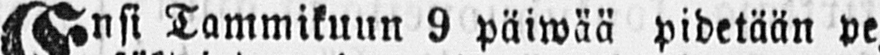Ensi Tammikuun 9 päiwää pidetään pe
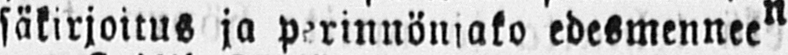säkirjoitus ja perinnönjako edesmenneen
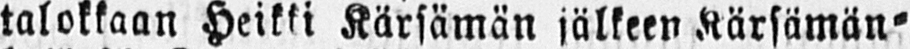talokkaan Heikki Kärsämän jälkeen Kärsämän-
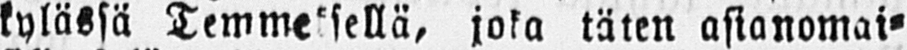kylässä Temmeksellä, joka täten asianomai-
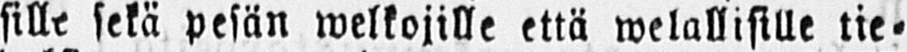sille sekä pesän welkojille että welallisille tie-
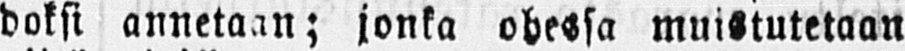doksi annetaan; jonka ohessa muistutetaan
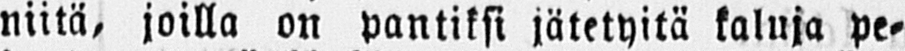niitä, joilla on pantiksi jätetyitä kaluja pe-
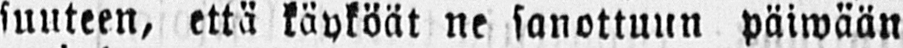suuteen, että käyköät ne sanottuun päiwään
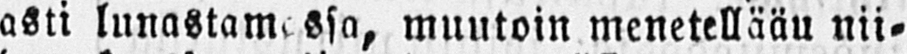asti lunastamassa, muutoin menetellääu nii-
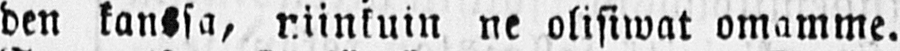den kanssa, niinkuin ne olisiwat omamme.
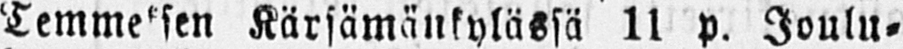Temmeksen Kärsämänkylässä 11 p. Joulu-
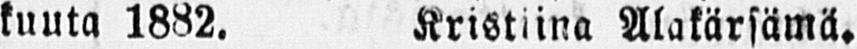kuuta 1882. Kristiina Alakärsämä.
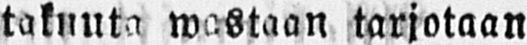Hywäksyttäwää takuuta wastaan tarjotaan
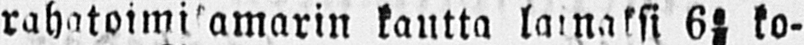rahatoimikamarin kautta lainaksi 6½ ko-
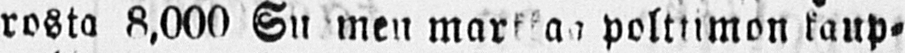rosta 8,000 Su men markkaa polttimon kaup-
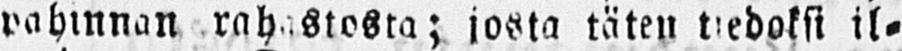pahinnan rahastosta; josta täten tiedoksi il-
